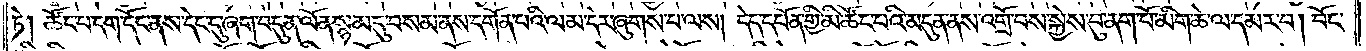ཏེ། ཚོང་པ་དག་དོང་ནས་དེང་དུ་ཞག་བདུན་ལོན་སྙམ་དུ་བསམ་ནས་དགོན་པའི་ལམ་དེར་ཞུགས་པ་ལས། དེད་དཔོན་གྱི་མི་ཚོང་པའི་མདུན་ནས་འགྲོ་བས་སྐྱེས་བུ་ནག་པོ་མིག་ཆེ་ལ་དམར་བ། བོང་
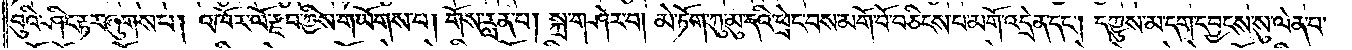བུའི་ཤིང་རྟར་ཞུགས་པ། འཁོར་ལོ་རྫབ་ཀྱིས་གཡོགས་པ། གོས་རླན་པ། སྐྲ་གཤེར་བ། མེ་ཏོག་ཀུ་མུ་དའི་ཕྲེང་བས་མགོ་བོ་བཅིངས་པ་མགོ་འདྲེན་དང༌། དཀྱུས་མ་དག་དབྱངས་སུ་ལེན་པ་
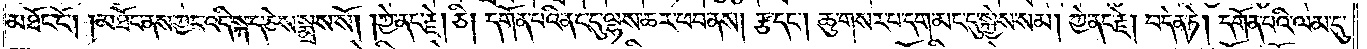མཐོང་ངོ༌། །མཐོང་ནས་ཀྱང་འདི་སྐད་ཅེས་སྨྲས་སོ། །ཀྱེ་ནང་རྗེ། ཅི། དགོན་པའི་ནང་དུ་ལྷས་ཆར་ཕབ་ནས། རྩ་དང༌། ཆུ་གསར་པ་དག་མང་དུ་སྐྱེས་སམ། ཀྱེ་ནང་རྗེ། བདེན་ཏེ། དགོན་པའི་ལམ་དུ་
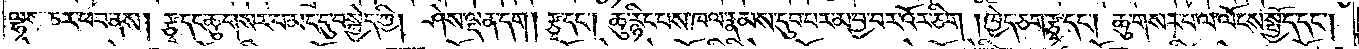ལྷས་ཆར་ཕབ་ནས། རྩྭ་དང་ཆུ་གསར་པ་མང་དུ་བསྐྱེད་ཀྱི། ཤེས་ལྡན་དག། རྩྭ་དང༌། ཆུ་རྙིང་པས་ཁལ་རྣམས་དུབ་པར་མ་བྱ་བར་འོར་ཅིག །ཁྱེད་ཅག་རྩྭ་དང༌། ཆུ་གསར་པ་ལ་ལོངས་སྤྱོད་དང༌།
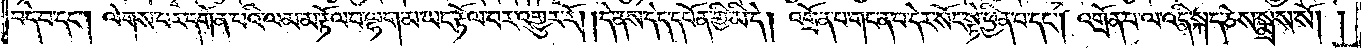བདེ་བ་དང༌། ལེགས་པར་དགོན་པའི་ལམ་མ་རྟོལ་བ་ལྷག་མ་ཡང་རྟོལ་བར་འགྱུར་རོ། །དེ་ནས་དེད་དཔོན་གྱི་མི་དེ། འགྲོན་པ་གང་ན་བ་དེར་སོང་སྟེ་ཕྱིན་པ་དང༌། འགྲོན་པ་ལ་འདི་སྐད་ཅེས་སྨྲས་སོ། །
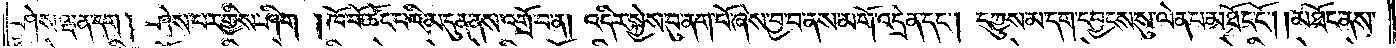ཤེས་ལྡན་དག། ཤེས་པར་གྱིས་ཤིག །ཁོ་བོ་ཚོང་པའི་མདུན་ནས་འགྲོ་བ་ན། འདིར་སྐྱེས་བུ་ནག་པོ་ཞེས་བྱ་བ་ནས་མགོ་འདྲེན་དང༌། དཀྱུས་མ་དག་དབྱངས་སུ་ལེན་པ་མཐོང་ངོ༌། །མཐོང་ནས་
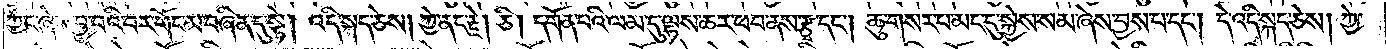ཀྱང་ཞེས་བྱ་བའི་བར་གོང་མ་བཞིན་དུ་སྟེ། འདི་སྐད་ཅེས། ཀྱེ་ནང་རྗེ། ཅི། དགོན་པའི་ལམ་དུ་ལྷས་ཆར་ཕབ་ནས་རྩྭ་དང༌། ཆུ་གསར་པ་མང་དུ་སྐྱེས་སམ་ཞེས་བྱས་པ་དང༌། དེ་འདི་སྐད་ཅེས། ཀྱེ་
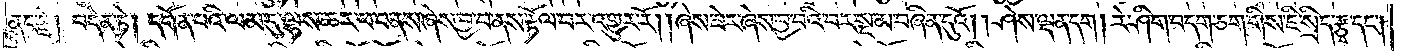ནང་རྗེ། བདེན་ཏེ། དགོན་པའི་ལམ་དུ་ལྷས་ཆར་ཕབ་ནས་ཞེས་བྱ་བ་ནས་རྟོལ་བར་འགྱུར་རོ། །ཞེས་ཟེར་ཞེས་བྱ་བའི་བར་སྔ་མ་བཞིན་དུའོ། །ཤེས་ལྡན་དག། རེ་ཤིག་བདག་ཅག་གིས་ཇི་སྲིད་རྩྭ་དང༌།
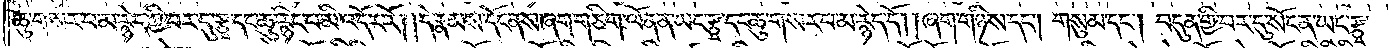ཆུ་གསར་པ་མ་རྙེད་ཀྱི་བར་དུ་རྩྭ་དང་ཆུ་རྙིང་པ་མི་འདོར་རོ། །དེ་རྣམས་དོང་ནས་ཞག་གཅིག་ལོན་ན་ཡང་རྩྭ་དང་ཆུ་གསར་པ་མ་རྙེད་དོ། །ཞག་གཉིས་དང༌། གསུམ་དང༌། བདུན་གྱི་བར་དུ་སོང་ན་ཡང་རྩྭ་
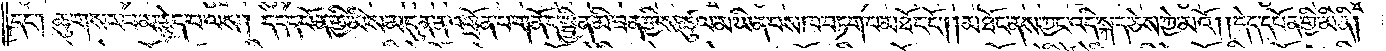དང༌། ཆུ་གསར་པ་མ་རྙེད་པ་ལས། དེད་དཔོན་གྱི་མིས་མདུན་ན་འགྲོན་པ་གནོད་སྦྱིན་མི་ཟན་གྱིས་ཚུལ་མ་ཡིན་པས་ཁ་བཏག་པ་མཐོང་ངོ༌། །མཐོང་ནས་ཀྱང་འདི་སྐད་ཅེས་ཀྱེ་མའོ། །དེད་དཔོན་གྱི་མི་ནི།
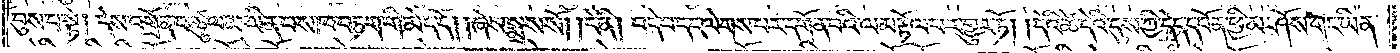བུས་པ་སྟེ། དེས་འགྲོན་པ་ཚུལ་མ་ཡིན་པས་ཁ་བཏག་གི་མེད་དོ། །ཞེས་སྨྲས་སོ། །དེ་ནི། བདེ་བ་དང་ལེགས་པར་དགོན་པའི་ལམ་རྟོལ་བར་གྱུར་ཏོ། །དེའི་ཚེ་དེའི་དུས་ཀྱི་དེད་དཔོན་ཕྱི་མ་ཤོས་གང་ཡིན་
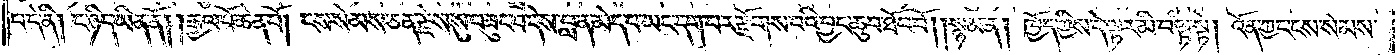པ་དེ་ནི། ང་ཉིད་ཡིན་ནོ། །རྒྱལ་པོ་ཆེན་པོ། ངས་སེམས་ཅན་རྗེས་སུ་བཟུང་བ་དེས་བླ་ན་མེད་པ་ཡང་དག་པར་རྫོགས་པའི་བྱང་ཆུབ་ཐོབ་བོ། །སྙམ་ན། ཁྱོད་ཀྱིས་དེ་ལྟར་མི་བལྟ་སྟེ། འོན་ཀྱང་ངས་སེམས་
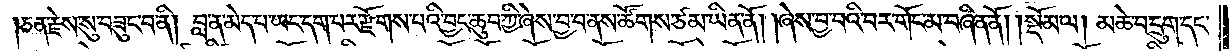ཅན་རྗེས་སུ་བཟུང་བ་ནི། བླ་ན་མེད་པ་ཡང་དག་པར་རྫོགས་པའི་བྱང་ཆུབ་ཀྱི་ཞེས་བྱ་བ་ནས་ཚོགས་ཙམ་ཡིན་ནོ། །ཞེས་བྱ་བའི་བར་གོང་མ་བཞིན་ནོ།    །སྡོམ་ལ། མཆེ་བ་དྲུག་དང་
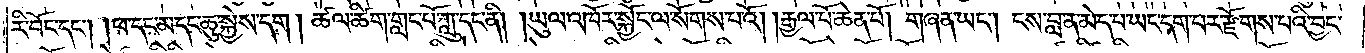རི་བོང་དང༌། །ཕ་དང་མ་དང་ཆུ་སྐྱེས་དག། ཚལ་ཚིག་གླང་པོ་ཀླུ་དང་ནི། །ཡུལ་འཁོར་སྐྱོང་ལ་སོགས་པའོ། །རྒྱལ་པོ་ཆེན་པོ། གཞན་ཡང༌། ངས་བླ་ན་མེད་པ་ཡང་དག་པར་རྫོགས་པའི་བྱང་
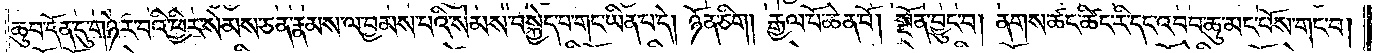ཆུབ་དོན་དུ་གཉེར་བའི་ཕྱིར་སེམས་ཅན་རྣམས་ལ་བྱམས་པའི་སེམས་བསྐྱེད་པ་གང་ཡིན་པ་དེ། ཉོན་ཅིག། རྒྱལ་པོ་ཆེན་པོ། སྔོན་བྱུང་བ། ནགས་ཚང་ཚིང་རི་དང་འབབ་ཆུ་མང་པོས་གང་བ།
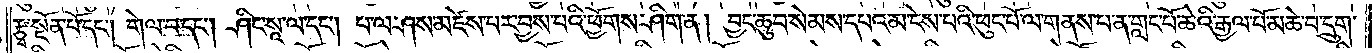རྩྭ་སྔོན་པོ་དང༌། གེལ་བ་དང༌། ཤིང་སཱ་ལ་དང༌། པ་ལ་ཤས་མཛེས་པར་བྱས་པའི་ཕྱོགས་ཤིག་ན། བྱང་ཆུབ་སེམས་དཔའ་མ་ངེས་པའི་ཕུང་པོ་ལ་གནས་པ་ན་གླང་པོ་ཆེའི་རྒྱལ་པོ་མཆེ་བ་དྲུག་
